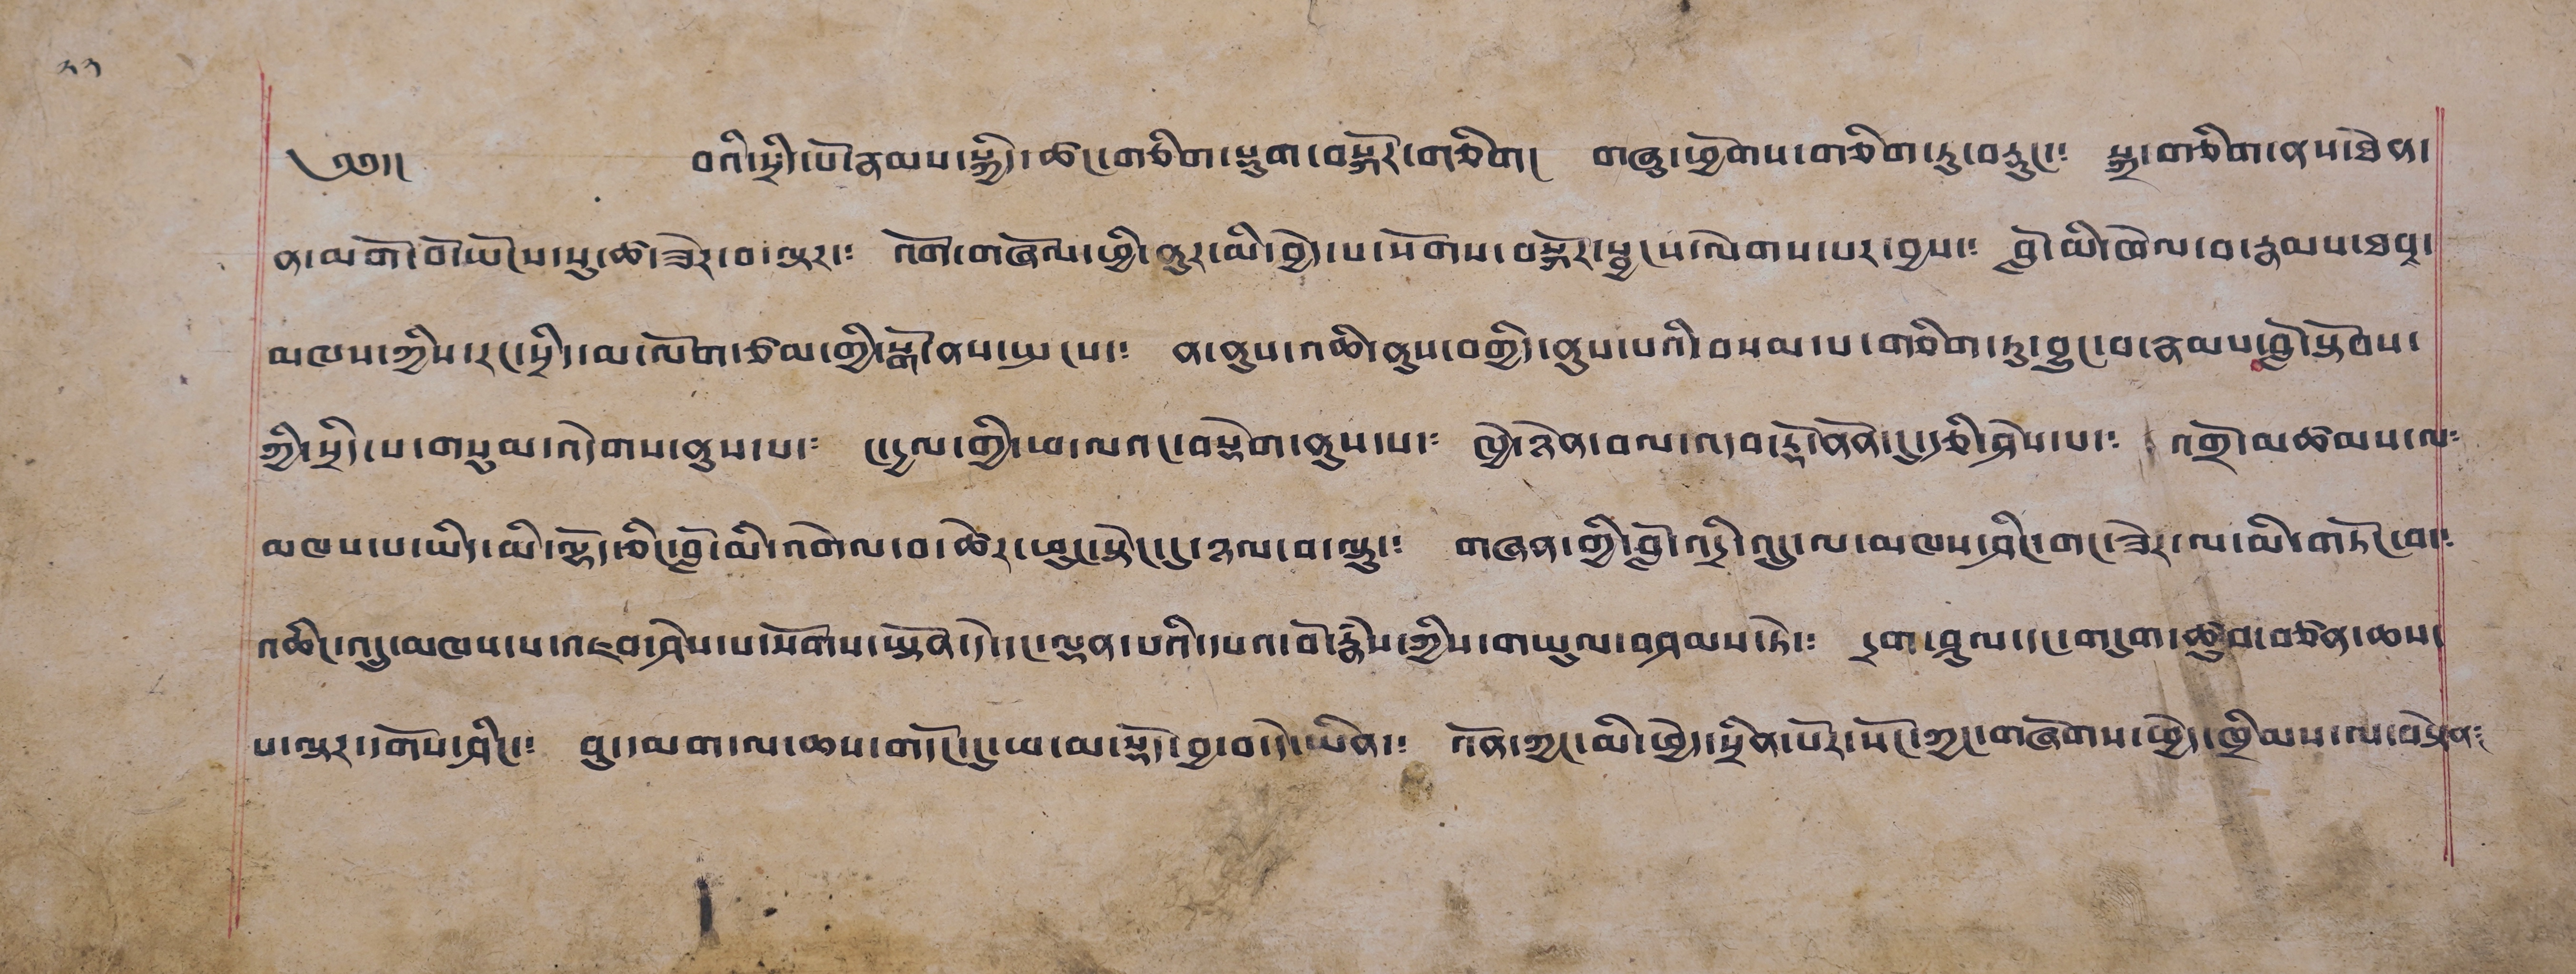༢༢
༄༅།། བའི་སྲིད་པོ་རྣམས་སྐྱིད་ཚང་གཅིག་སྡུག་བསྐོར་གཅིག། གཞུ་ཕྱོགས་གཅིག་ཏུ་བརྡུང་༴ སྐྲ་གཅིག་ནས་ཐེན་
ན་མགོ་བོ་ཡོངས་སུ་ཚ་ཟེར་བ་ལྟར་༴ འོག་གཞོལ་ཕྱི་ནུར་མི་བྱེད་པ་སོགས་བསྐོར་སྦྱངས་ལེགས་པར་བྱས་༴ བློ་མི་ཁེལ་བ་རྣམས་ཐབས་
མཁས་ཀྱིས་རང་སྲིད་མ་ལོག་ཙམ་གྱི་སྒོ་ནས་སྤངས་༴ ན་ནུས་འཆི་ནུས་བགྱི་ནུས་པའི་བསམ་པ་གཅིག་ཏུ་བྱུང་བ་རྣམས་བློ་སྟོབས་
ཀྱི་སྲིད་པ་གསུམ་འདེགས་བུས་པ་༴ ང་དྱལ་གྱི་ཕ་ལའང་བསྟེག་ནུས་པ་། ཁྱེ་ཉེན་བལ་འདབ་རྡོ་ནོན་དུ་རྩི་ཤེས་པ་༴ འགྲོ་མཚམས་ལ༴
མཁས་པ་ཡིད་མི་ལྷོད་ཅིང་བློ་མི་འགེལ་བ་ཚེར་ཕུང་སྟེང་དུ་ཉལ་བ་ལྟུ་༴ གཞན་གྱི་བློ་འདྲི་འདྲུ་ལ་མཁས་ཤིང་གང་ཟེར་ལ་མི་གཏོང་བ་༴
འཆིང་འདྲུ་མཁས་པ་འཇབ་ཤེས་པ་སོགས་ཡོཏན་དེ་དང་ལྷན་པའི་དཔའ་བོ་རྣཾས་ཀྱིས་གཡུལ་བཤམས་ཏེ་༴ དྲག་ཤུལ་དང་གདུག་ཚུབ་བཙན་ཆས་
པ་ལྟར་དགོས་ཤིང་༴ བུ་དམག་ལ་ཆས་གདོང་དུ་ཕ་མ་སྡོད་བྱ་བ་དེ་ཡིན་༴ འོན་ཀྱང་མི་ཕྱེ་སྲིན་སོར་སོང་ཀྱང་གཞོགས་ཕྱེད་ཁྲིམས་ལ་བསྟེན༴
